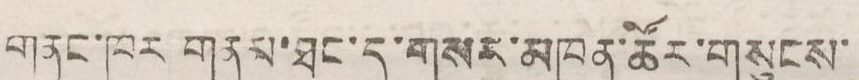གནང་ཁར གནམ་ཐང་དུ་གསར་མཁན་ཚོར་གསུངས་
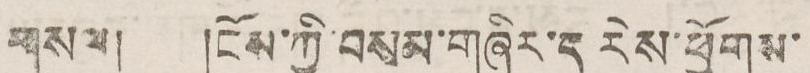གསལ། །ངོས་གྱི་བསམ་གཞིར་ད རེས་ཕྱོགས་
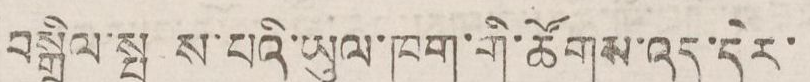བསྒྲིག་སྤ ས་པའི་ཡུལ་ཁག་གི་ཚོགས་འདུ་དེར་
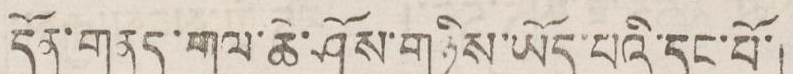དོན་གནད་གལ་ཆེ་ཤོས་གཉིས་ཡོད་པའི་དང་པོ་།
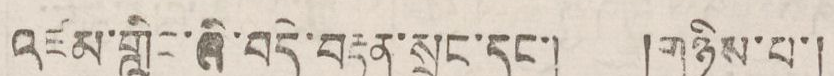འཛམ་གླིང་ཞི་བདེ་བརྟན་སྲུང་དང་། །གཉིས་པ་།
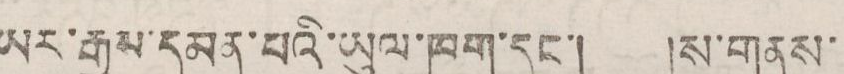ཡར་རྒྱས་དམན་པའི་ཡུལ་ཁག་དང་། །ས་གནས་
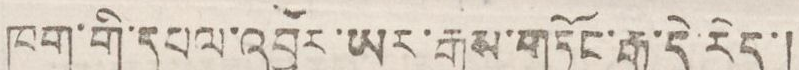ཁག་གི་དཔལ་འབྱོར་ཡར་རྒྱས་གཏོང་རྒྱུ་དེ་རེད་།
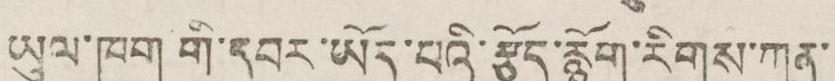ཡུལ་ཁག གི་དབར་ཡོད་པའི་རྩོད་རྙོག་རིགས་ཀུན་
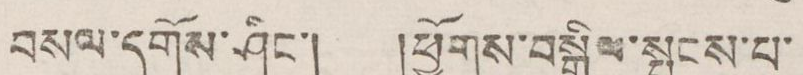བསལ་དགོས་ཤིང་། །ཕྱོགས་བསྒྲིལ་སྤངས་པ་
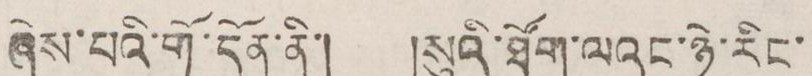ཞེས་པའི་གོ་དོན་ནི་། སུའི་ཐོག་ལའང་ཉེ་རིང་
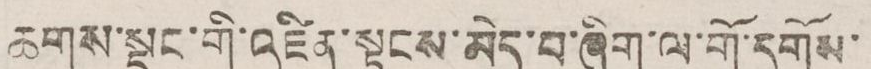ཆགས་སྡང་གི་འཛིན་སྟངས་མེད་བ་ཞིག་ལ་གོ་དགོས་
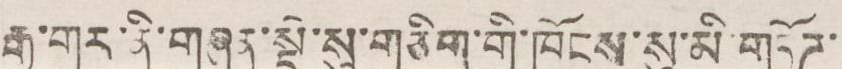རྒྱ་གར་ནི་གཞས་སྡེ་སུ་གཅིག་གི་ཁོངས་སུ་མི་གཏོཊ་
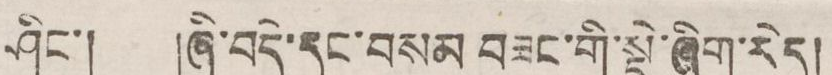ཤིང་། །ཞི་བདེ་དང་བསམ བཟང་གི་སྡེ་ཞིག་རེད།
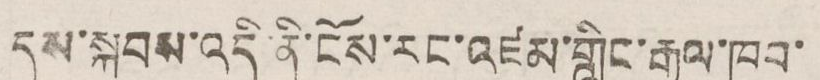དུས་སྐབས་འདི་ནི་ངོས་འཛམ་གླིང་རྒྱལ་ཁབ་
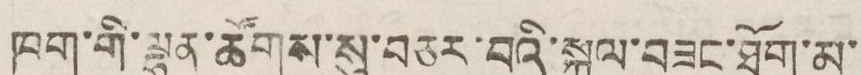ཁག་གི་ལྷག་ཚོགས་སུ་བཅར་བའི་སྐལ་བཟང་ཐོག་མ་
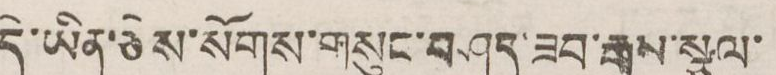དེ་ཡིན་ཅེས་སོགས་གསུང་བཤད་ཟབ་རྒྱས་སྩལ་
